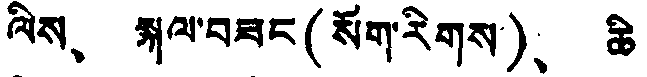ལིས、 སྐལ་བཟང (སོག་རིགས་)、 ཆི་
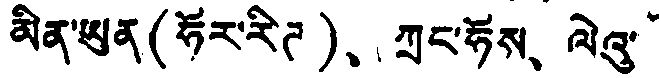མིན་ཡུན (ཧོར་རིཊ་)、 ཀྲུང་ཧོས、 ལེའུ་
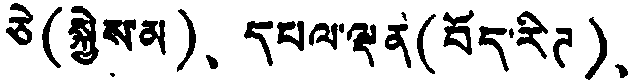ཅེ (སྐྱེས་མ)、 དཔལ་ལྡན (བོད་རིཊ )、
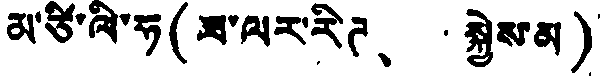མ་ཙི་ལི་ཧ(ཟ་ལར་རིཊ、 སྐྱེས་མ)
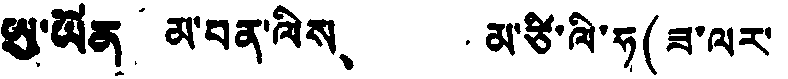ཨུ་ཡོན མ་བན་ལིས、 མ་ཙི་ལི་ཧ (ཟ་ལར་
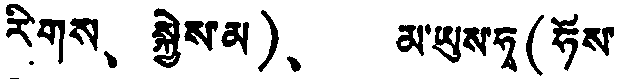རིགས、 སྐྱེས་མ)、 མ་ཡུས་ཧྭ (ཧོས་
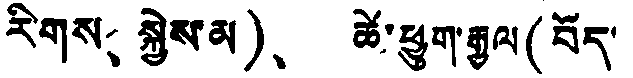རིགས、 སྐྱེས་མ)、 ཚེ་ཕྱུག་རྒྱལ (བོད་
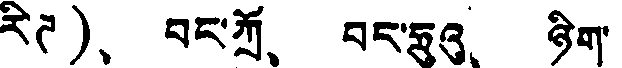རིཊ)、 བང་ཀྲོ、 བང་ཧྲུའུ、 ཉིག་
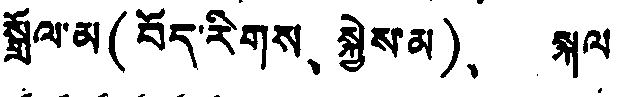སྒྲོལ་མ (བོད་རིགས、 སྐྱེས་མ)、 སྐལ
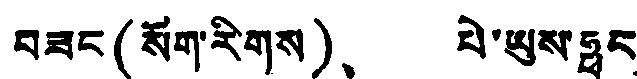བཟང (སོག་རིགས)、 པེ་ཡུས་ཧྥང་
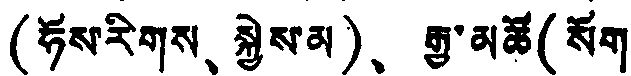(ཧོས་རིགས、 སྐྱེས་མ) རྒྱ་མཚོ(སོག་
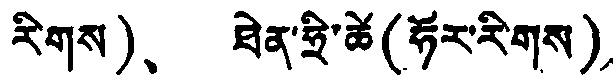རིགས)、 ཐེན་ཧྲི་ཚེ (ཧོར་རིགས)、
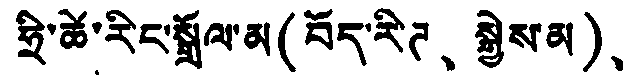ཧྲི་ཚེ་རིང་སྒྲོལ་མ(བོད་རིཊ、 སྐྱེས་མ)、
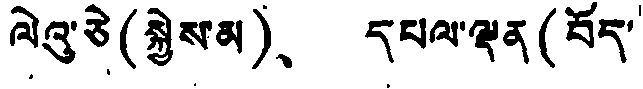ལེའུ་ཅེ (སྐྱེས་མ)、 དཔལ་ལྡན (བོད་
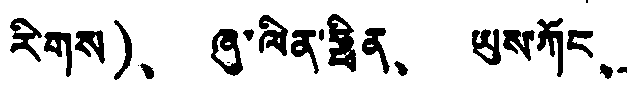རིགས)、 ཞུ་ལིན་ཧྥིན、 ཡུས་ཀོང、
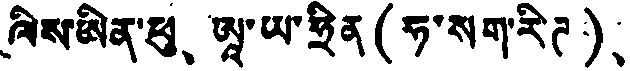ལིས་ཡིན་ཕུ、 ཨཱ་ཡ་ཧྲིན (ཧ་སག་རིཊ )、
